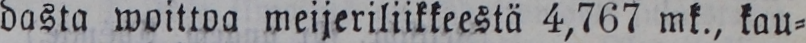dasta woittoa meijeriliikkeestä 4,767 mk., kau-
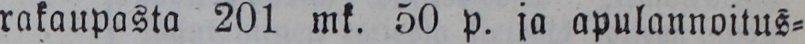rakaupasta 201 mk. 50 p. ja apulannoitus-
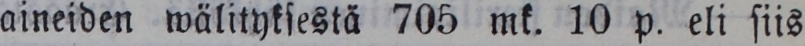aineiden wälityksestä 705 mk. 10 p. eli siis
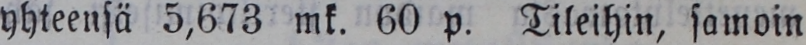yhteensä 5,673 mk. 60 p. Tileihin, samoin
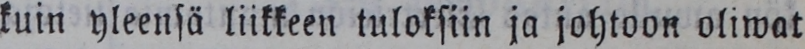kuin yleensä liikkeen tuloksiin ja johtoon oliwat
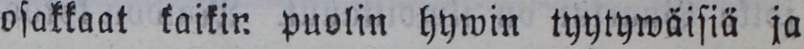osakkaat kaikin puolin hywin tyytywäisiä ja
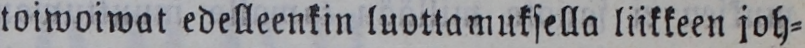toiwoiwat edelleenkin luottamuksella liikkeen joh-
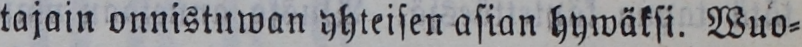tajani onnistuwan yhteisen asian hywäksi. Wuo-
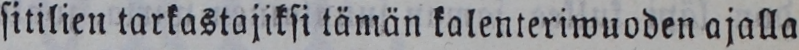sitilien tarkastajiksi tämän kalenteriwuoden ajalla
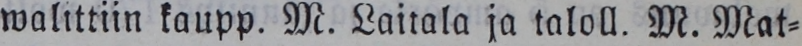walittiin kaupp. M. Laitala ja taloll. M. Mat-
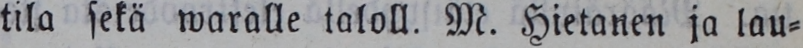tila sekä waralle taloll. M. Hietanen ja lau-
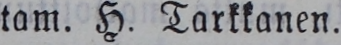tam. H. Tarkkanen.
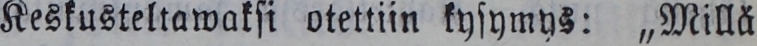Keskusteltawaksi otettiin kysymys: „Millä
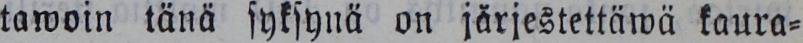tawoin tänä syksynä on järjestettäwä kauro-
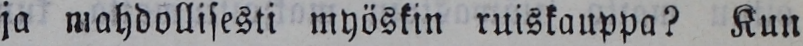ja mahdollisesti myöskin ruiskauppa? Kun
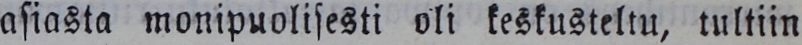asiasta monipuolisesti oli keskusteltu, tultiin
